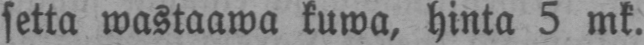setta wastaawa kuwa, hinta 5 mk.
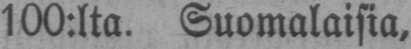100:lta. Suomalaisia.
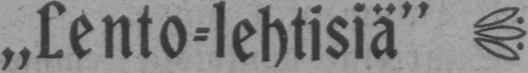„Lento-lehtisiä"
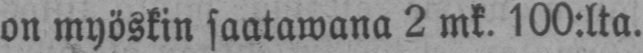on myöskin saatawana 2 mk. 100:lta.
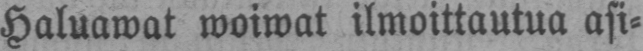Haluawat woiwat ilmoittautua asi-
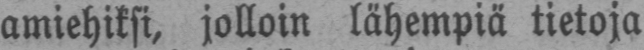amiehiksi, jolloin lähempiä tietoja
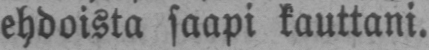ehdoista saapi kauttani.
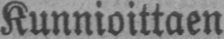Kunnioittaen
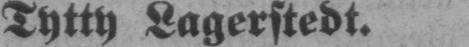Tytty Lagerstedt.
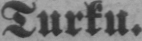Turku.
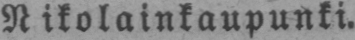Nikolainkaupunki.
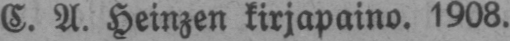C. A. Heinzen kirjapaino. 1908.
